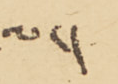ལ་།
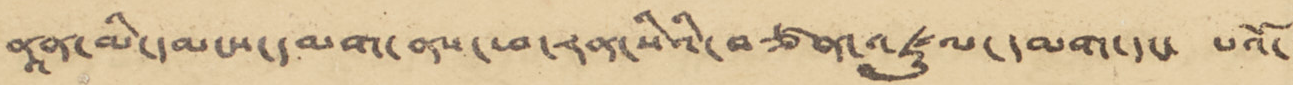ནཱན་མི་དམངས་དམག་ནས་ཕ་རན་སིའི་བཙན་འཛུལ་དམག་དང་ པའོ་
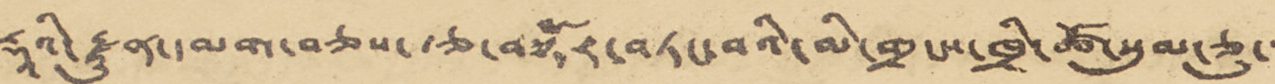རྡཱའི་རྫུན་དམག་བཅས་རྩ་བསྟོར་བཏང་བའི་མི་གྲངས་ཁྲི་ཚོ་སུམ་ཅུ་་་
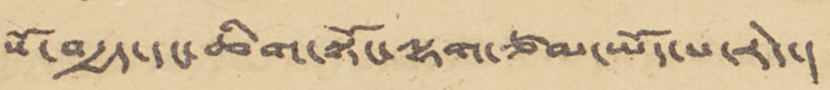སོ་བརྒྱད་དང་ཆིག་སྟོང་ལྷག་ཙམ་ཡོད་པ་རེད་།
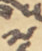༧
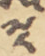༨
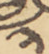༣
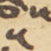༥
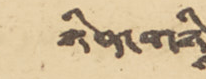ཉིན་གཉི་
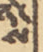ས
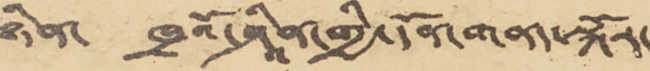ཉིན་ ཁྲའོ་ཤཱིན་གྱི་དོན་གནད་སྐོར་
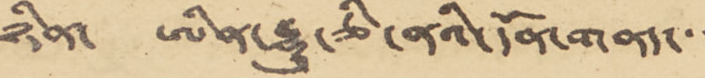ཉིན་ ཨིན་རྷུ་ཅི་ནའི་དོན་གནད་་་་
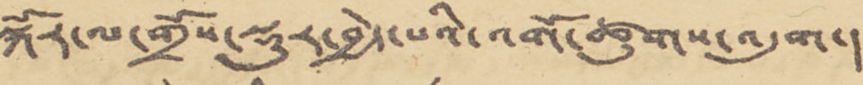སྐོར་ལ་གྲོས་སྡུར་བྱེད་པའི་འགོ་ཚུགས་འདུག་།
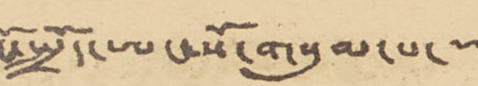ངོ་སྤྲོད་ཨང་སོ་གསུམ་པ་
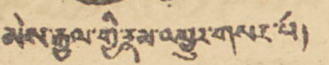མེས་རྒྱལ་གྱི་རྣམ་འགྱུར་གསར་པ།
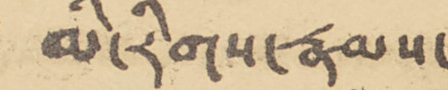མི་རིགས་རྣམས་
